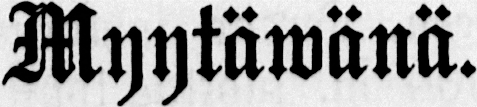Myytäwänä.
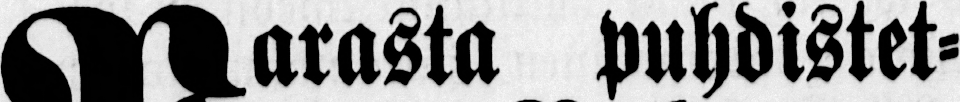Parasta puhdistet-
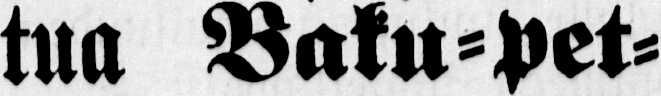tua Baku-pet-
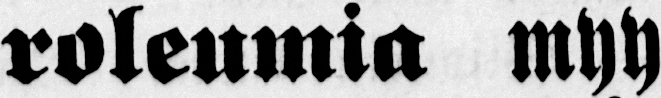roleumia myy
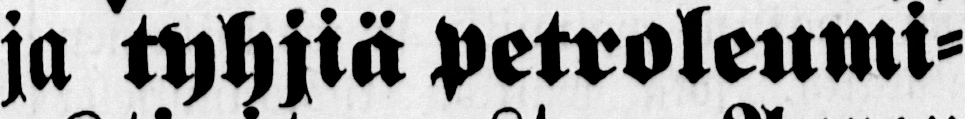ja tyhjiä petroleumi-
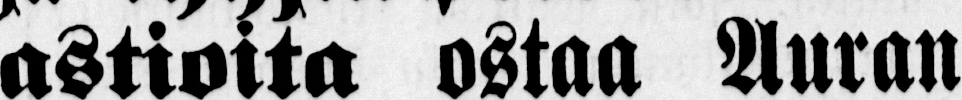astioita ostaa Auran
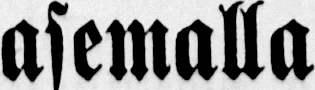asemalla
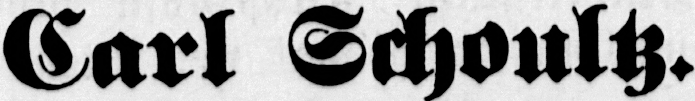Carl Schoultz.
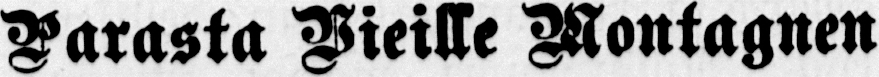Parasta Bieille Montagnen
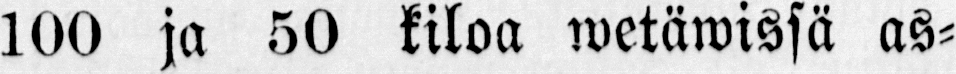100 ja 50 kiloa wetäwissä as-
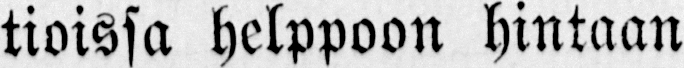tioissa helppoon hintaan
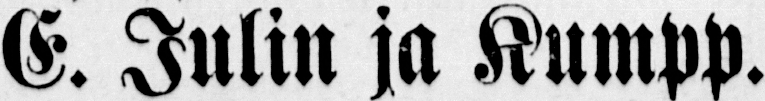G. Julin ja Kumpp.
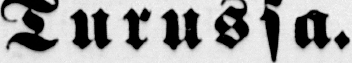Turussa.
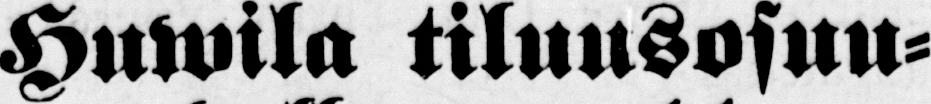Huwila tiluusosuu-
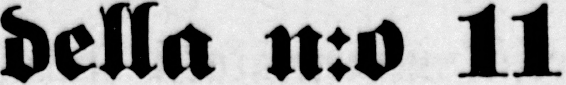della n:o 11
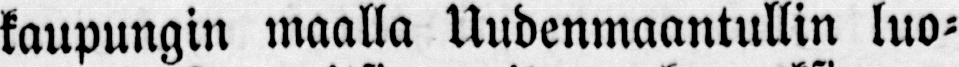kaupungin maalla Uudenmaantullin luo-
